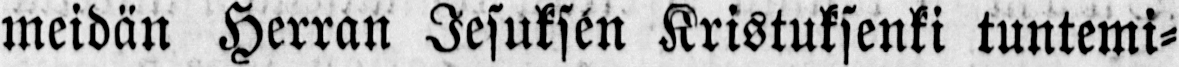meidän Herran Jesuksen Kristuksenki tuntemi-
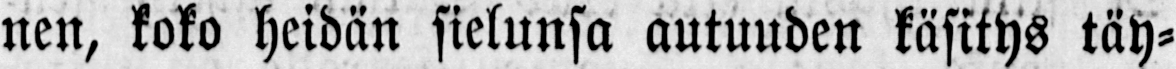nen, koko heidän sielunsa autuuden käsitys täy-
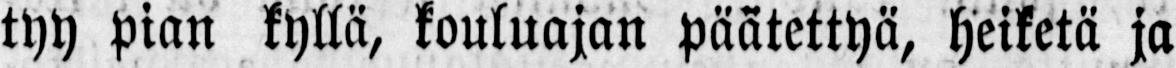tyy pian kyllä, kouluajan päätettyä, heiketä ja
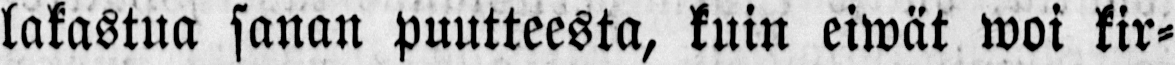lakastua sanan puutteesta, kuin eiwät woi kir-
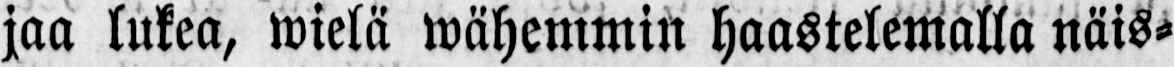jaa lukea, wielä wähemmin haastelemalla näis-
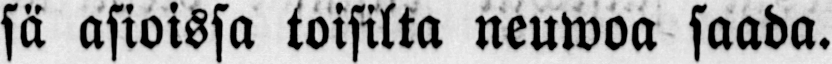sä asioissa toisilta neuwoa saada.
